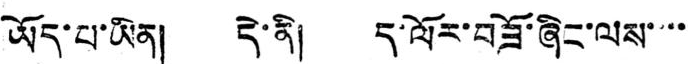ཡོད་པ་ཡིན། དེ་ནི། ད་ལོར་བཟོ་ཞིང་ལས་་་་་
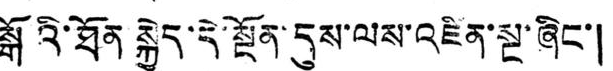སྒོའི་ཐོན སྐྱེད་དེ་སྔོན་དུས་ལས་འཛིན་སྔ་ཞིང་།
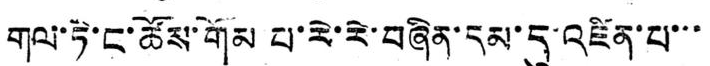གལ་ཏེ་ང་ཚོས་གོམ པ་རེ་རེ་བཞིན་དམ་དུ་འཛིན་པ་་་
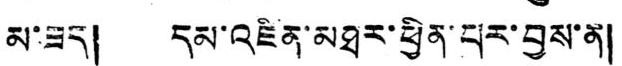མ་ཟད། དམ་འཛིན་མཐར་ཕྱིན་པར་བྱས་ན།
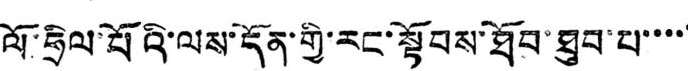ལོ་ཧྲིལ་པོའི་ལས་དོན་གྱི་རང་སྟོབས་ཐོབ་ཐུབ་པ་་་་་
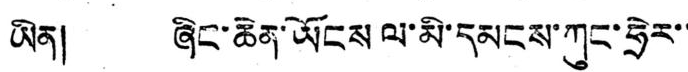ཡིན། ཞིང་ཆེན་ཡོངས ལ་མི་དམངས་ཀུང་ཧྲེར་་་
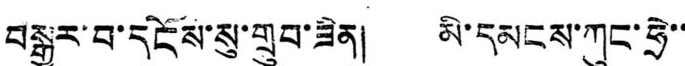བསྒྱུར་བ་དངོས་སུ་གྲུབ་ཟིན། མི་དམངས་ཀུང་ཧྲེ་་་
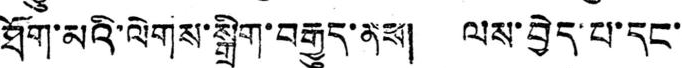ཐོག་མའི་ལེགས་སྒྲིག་བརྒྱུད་ནས། ལས་བྱེད་པ་དང་།
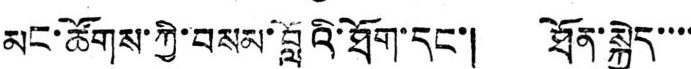མང་ཚོགས་ཀྱི་བསམ་བློའི་ཐོག་དང་། ཐོན་སྐྱེད་་་་
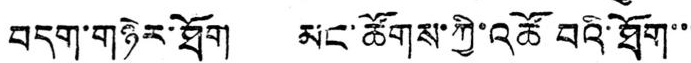བདག་གཉེར་ཐོག མང་ཚོགས་ཀྱི་འཚོ བའི་ཐོག་་་
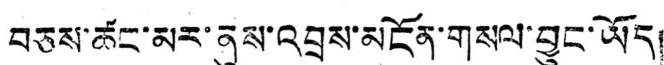བཅས་ཚང་མར་ནུས་འབྲས་མངོན་གསལ་བྱུང་ཡོད།
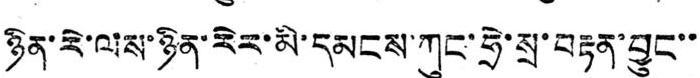ཉིན་རེ་ལས་ཉིན་རེར་མི་དམངས་ཀུང་ཧྲེ་སྲ་བརྟན་བྱུང་་
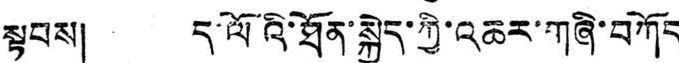སྟབས། ད་ལོའི་ཐོན་སྐྱེད་ཀྱི་འཆར་གཞི་བཀོད་
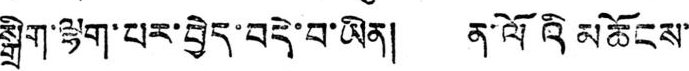སྒྲིག་ལྷག་པར་བྱེད་བདེ་བ་ཡིན། ན་ལོའི མཆོངས་
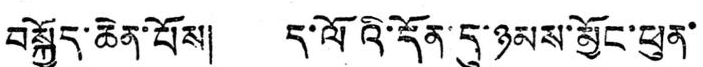བསྐྱོད་ཆེན་པོས། ད་ལོའི་དོན་དུ་ཉམས་མྱོང་ཕུན་
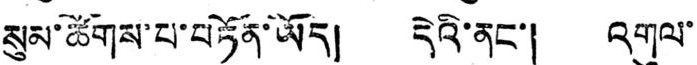སུམ་ཚོགས་པ་བཏོན་ཡོད། དེའི་ནང་། འགུལ་
